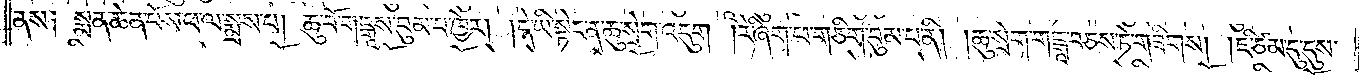ནས༑ སྨན་ཆེན་པོས་ཕ་ལ་སྨྲས་པ། ཆུ་བོ་གངྒཱས་བུམ་པ་ཁྱེར། །དེ་ཡི་སྟེང་ན་ཆུ་སྲེག་འདུག །རེ་ཞིག་ཕ་གཅིག་བུམ་པ་ནི། །ཆུ་སྲེག་གངྒཱ་བཅས་ཏེ་གཟིགས། །ཇི་ཙམ་དུ་དུས་
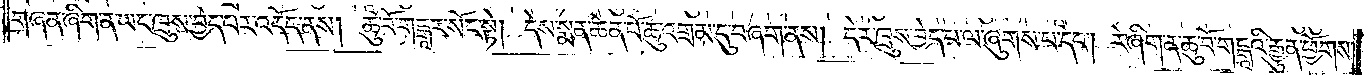གཞན་ཞིག་ན་ཡང་ཁྲུས་བྱེད་པར་འདོད་ནས། ཆུ་བོ་གངྒཱར་སོང་སྟེ། དེས་སྨན་ཆེན་པོ་ཆུ་འགྲམ་དུ་བཞག་ནས། དེར་ཁྲུས་བྱེད་པ་ལ་ཞུགས་པ་དང༌། རེ་ཞིག་ན་ཆུ་བོ་གངྒཱའི་རྒྱུན་ཕྱོགས་
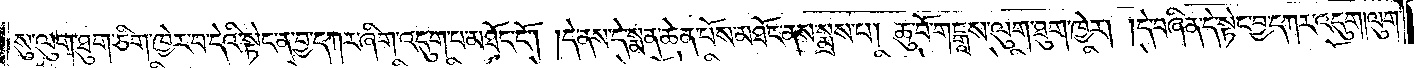སུ་ལུག་ཐུག་ཅིག་ཁྱེར་བ་དེའི་སྟེང་ན་བྱ་དཀར་ཞིག་འདུག་པ་མཐོང་ངོ༌། །དེ་ནས་དེ་སྨན་ཆེན་པོས་མཐོང་ནས་སྨྲས་པ། ཆུ་བོ་གངྒཱས་ལུག་ཐུག་ཁྱེར། །དེ་བཞིན་དེ་སྟེང་བྱ་དཀར་འདུག །ལུག་
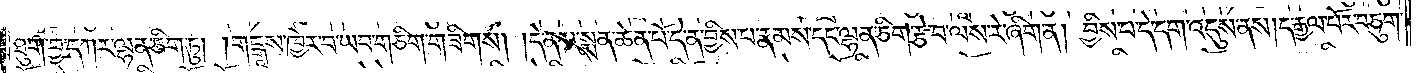ཐུག་བྱ་དཀར་ལྷན་ཅིག་ཏུ། །གངྒཱས་ཁྱེར་བ་ཡབ་གཅིག་གཟིགས། །དེ་ནས་སྨན་ཆེན་པོ་དེ་ན་བྱིས་པ་རྣམས་དང་ལྷན་ཅིག་རྩེ་བ་ལས་རེ་ཞིག་ན། བྱིས་པ་དེ་དག་འདུས་ནས། ད་རྒྱལ་པོར་བཅུག་
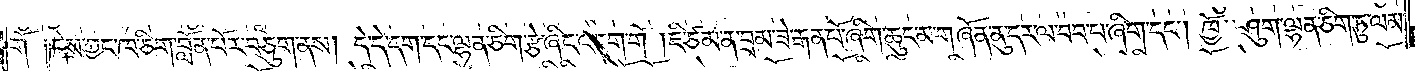གོ ༑དེས་ཀྱང་ཁ་ཅིག་བློན་པོར་བཅུག་ནས། དེ་དེ་དག་དང་ལྷན་ཅིག་རྩེ་ཞིང་འདུག་གོ །ཇི་ཙམ་ན་བྲམ་ཟེ་རྒན་པོ་ཞིག་ཆུང་མ་གཞོན་ནུ་དར་ལ་བབ་པ་ཞིག་དང༌། ཁྱོ་ཤུག་ལྷན་ཅིག་ཏུ་ལམ་
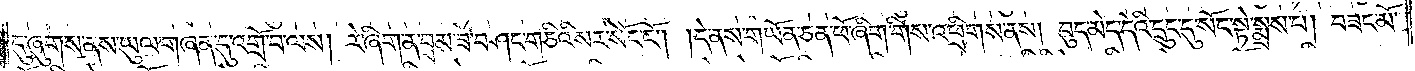དུ་ཞུགས་ནས་ཡུལ་གཞན་དུ་འགྲོ་བ་ལས། རེ་ཞིག་ན་བྲམ་ཟེ་བཤང་གཅིའི་སར་སོང་ངོ༌། །དེ་ནས་གཡོན་ཅན་ཕོ་ཞིག་གིས་འཕྲིགས་ནས། བུད་མེད་དེའི་དྲུང་དུ་སོང་སྟེ་སྨྲས་པ། བཟང་མོ་
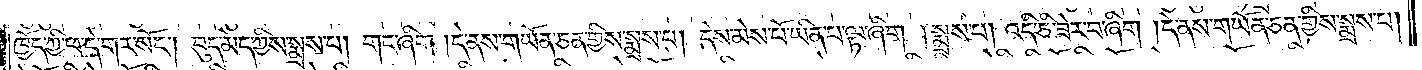ཁྱོད་ཀྱི་ཕ་དེ་གར་སོང༌། བུད་མེད་ཀྱིས་སྨྲས་པ། གང་ཞིག །དེ་ནས་གཡོན་ཅན་གྱིས་སྨྲས་པ། དེས་མེས་པོ་ཡིན་པ་ལྟ་ཞིག །སྨྲས་པ། འདི་ཅི་ཟེར་བ་ཞིག །དེ་ནས་གཡོན་ཅན་གྱིས་སྨྲས་པ།
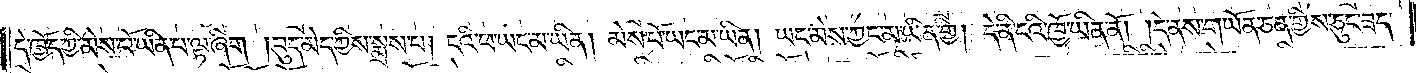དེ་ཁྱོད་ཀྱི་མེས་པོ་ཡིན་པ་ལྟ་ཞིག །བུད་མེད་ཀྱིས་སྨྲས་པ། ངའི་ཕ་ཡང་མ་ཡིན། མེས་པོ་ཡང་མ་ཡིན། ཡང་མེས་ཀྱང་མ་ཡིན་གྱི། དེ་ནི་ངའི་ཁྱོ་ཡིན་ནོ། །དེ་ནས་གཡོན་ཅན་གྱིས་ཅུང་ཟད་
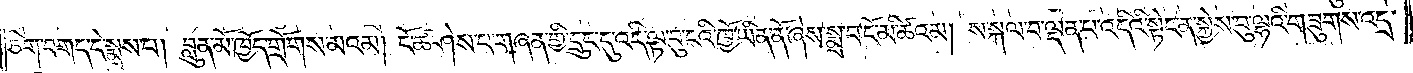ཅིག་བགད་དེ་སྨྲས་པ། བླུན་མོ་ཁྱོད་གྲོགས་མའམ། ངོ་ཚ་ཤེས་པ་གཞན་གྱི་དྲུང་དུ་འདི་ལྟ་བུ་ངའི་ཁྱོ་ཡིན་ནོ་ཞེས་སྨྲ་བ་ངོ་མི་ཚའམ། ས་སྐལ་བ་ལྡན་པ་འདིའི་སྟེང་ན་སྐྱེས་བུ་ལྷའི་གཟུགས་འདྲ་
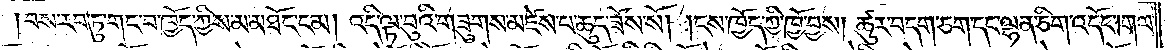བས་རབ་ཏུ་གང་བ་ཁྱོད་ཀྱིས་མ་མཐོང་ངམ། འདི་ལྟ་བུའི་གཟུགས་མཛེས་པ་ཆུད་ཟོས་སོ། །ངས་ཁྱོད་ཀྱི་ཁྱོ་བྱས། ཚུར་བདག་ཅག་དང་ལྷན་ཅིག་འདོང༌། གལ་
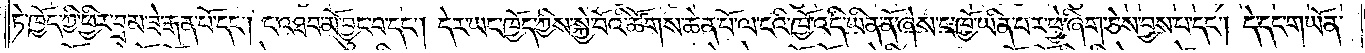ཏེ་ཁྱོད་ཀྱི་ཕྱིར་བྲམ་ཟེ་རྒན་པོ་དང༌། ང་འཐབ་མོ་བྱུང་བ་དང༌། དེར་ཡང་ཁྱོད་ཀྱིས་སྐྱེ་བོའི་ཚོགས་ཆེན་པོ་ལ་ངའི་ཁྱོ་འདི་ཡིན་ནོ་ཞེས་ང་ཁྱོ་ཡིན་པར་ཕྱེ་ཞིག་ཅེས་བྱས་པ་དང༌། དེ་དང་གཡོན་
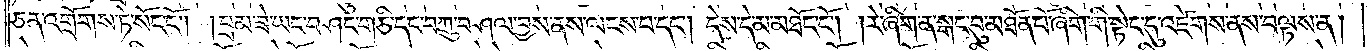ཅན་འགྲོགས་ཏེ་སོང་ངོ༌། །བྲམ་ཟེ་ཡང་བཤང་གཅི་དང་བཀྲུ་བཤལ་བྱས་ནས་ལངས་པ་དང༌། དེས་དེ་མ་མཐོང་ངོ༌། །རེ་ཞིག་ན་སྒང་བུ་མཐོན་པོ་ཞིག་གི་སྟེང་དུ་འཛེགས་ནས་བལྟས་ན།
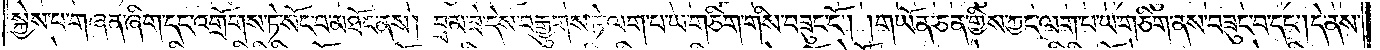སྐྱེས་པ་གཞན་ཞིག་དང་འགྲོགས་ཏེ་སོང་བ་མཐོང་ནས། བྲམ་ཟེ་དེས་བརྒྱུགས་ཏེ་ལག་པ་ཡ་གཅིག་གིས་བཟུང་ངོ༌། །གཡོན་ཅན་གྱིས་ཀྱང་ལག་པ་ཡ་གཅིག་ནས་བཟུང་བ་དང༌། དེ་ནས་
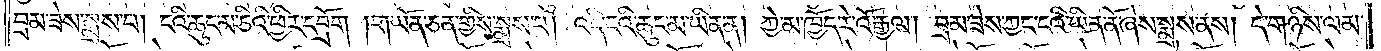བྲམ་ཟེས་སྨྲས་པ། ངའི་ཆུང་མ་ཅིའི་ཕྱིར་དབྲོག །གཡོན་ཅན་གྱིས་སྨྲས་པ། འདི་ངའི་ཆུང་མ་ཡིན་ན། ཀྱེ་མ་ཁྱོད་རེ་འོ་རྒྱལ། བྲམ་ཟེས་ཀྱང་ངའི་ཡིན་ནོ་ཞེས་སྨྲས་ནས། དེ་གཉིས་ལམ་
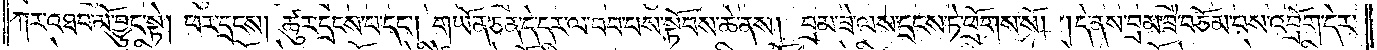ཀར་འཐབ་མོ་བྱུང་སྟེ། ཕར་དྲངས། ཚུར་དྲངས་པ་དང༌། གཡོན་ཅན་དེ་དར་ལ་བབ་པས་སྟོབས་ཆེ་ནས། བྲམ་ཟེ་ལས་དྲངས་ཏེ་ཕྲོགས་སོ། །དེ་ནས་བྲམ་ཟེ་བཅོམ་པས་འབྲོག་དེར་
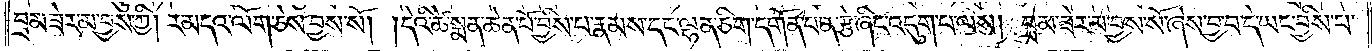བྲམ་ཟེར་མ་བྱས་ཀྱི། ར་མདའ་ལོག་ཅེས་བྱས་སོ། །དེའི་ཚེ་སྨན་ཆེན་པོ་བྱིས་པ་རྣམས་དང་ལྷན་ཅིག་དགོན་པ་ན་རྩེ་ཞིང་འདུག་པ་ལས། བྲམ་ཟེར་མ་བྱས་སོ་ཞེས་བྱ་བ་དེ་ཡང་བྱིས་པ་
